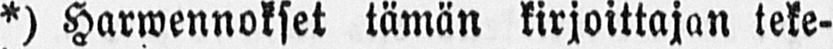*) Harwennokset tämän kirjoittajan teke-
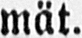mät.
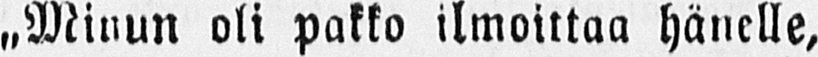„Minun oli pakko ilmoittaa hänelle,
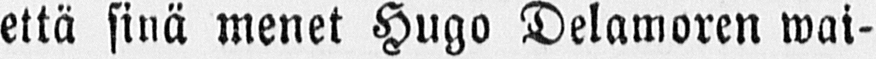että sinä menet Hugo Delamoren wai-
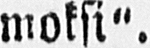moksi".
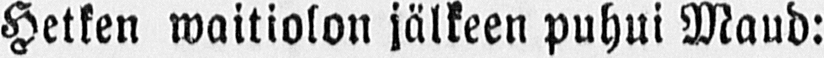Hetken waitiolon jälkeen puhui Maud:
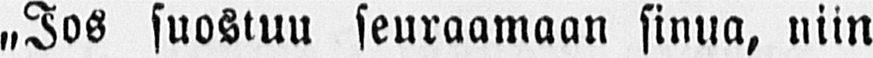„Jos suostuu seuraamaan sinua, niin
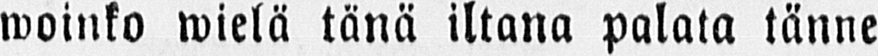woinko wielä tänä iltana palata tänne
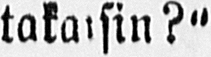takaisin?"
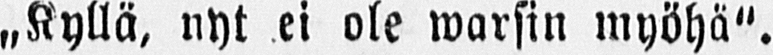„Kyllä, nyt ei ole warsin myöhä".
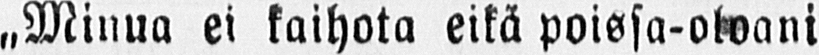«Minua ei kaihota eikä poissa-oloani
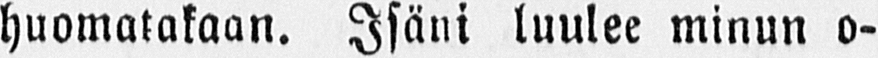huomatakaan. Isäni luulee minun o-
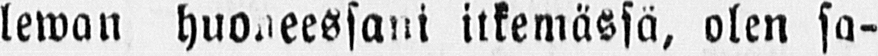leman huoneessani itkemässä, olen sa-
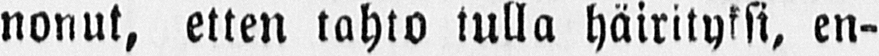nonut, etten tahto tulla häirityksi, en-
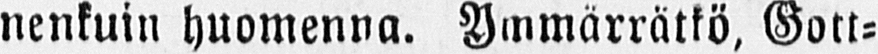nenkuin huomenna. Ymmärrätkö, Gott-
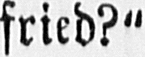fried?"
